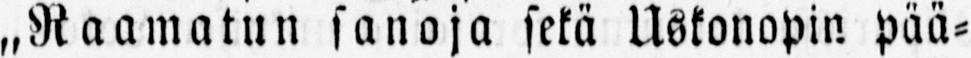„Raamatun sanoja sekä Uskonopin pää-
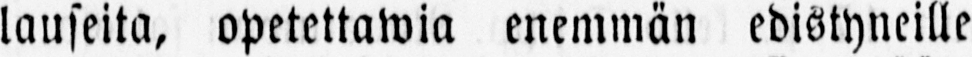lauseita, opetettawia enemmän edistyneille
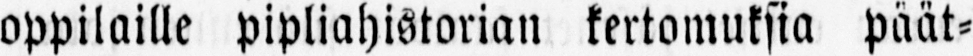oppilaille pipliahistorian kertomuksia päät-
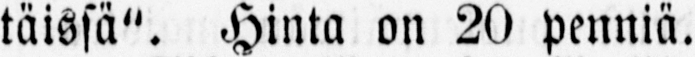täissä". Hinta on 20 penniä.
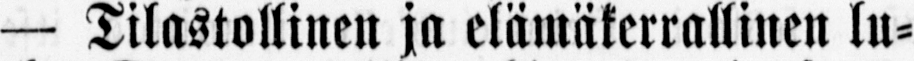— Tilastollinen ja elämäkerrallinen lu-
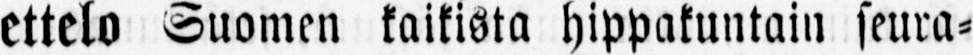ettelo Suomen kaikista hippakuntain seura-
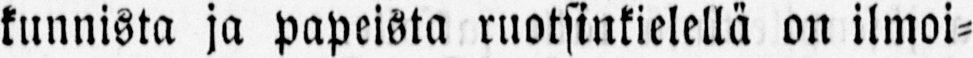kunnista ja papeista ruotsinkielellä on ilmoi-
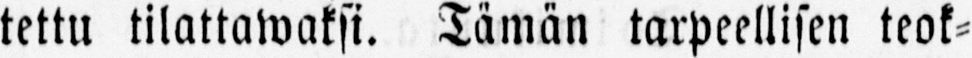tettu tilattawaksi. Tämän tarpeellisen teok-
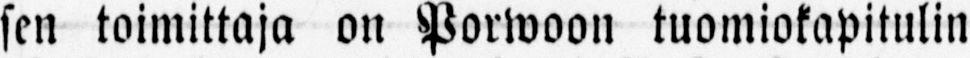sen toimittaja on Porwoon tuomiokapitulin
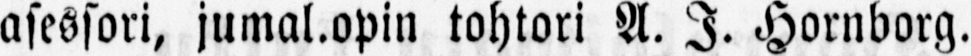asessori, jumal.opin tohtori A. I. Hornborg.
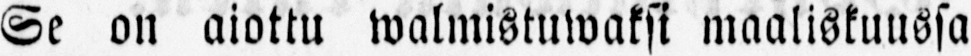Se on aiottu walmistuwaksi maaliskuussa
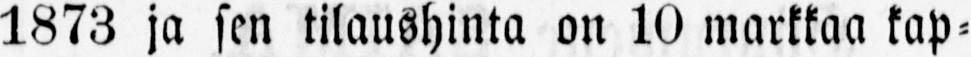1873 ja sen tilaushinta on 10 markkaa kap-
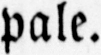pale.
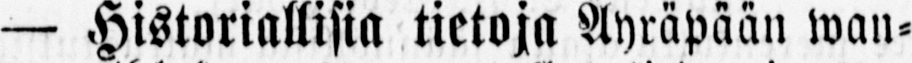— Historiallisia tietoja Äyräpään wan-
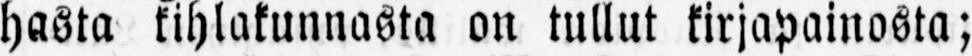hasta kihlakunnasta on tullut kirjapainosta;
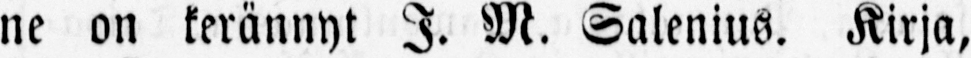ne on kerännyt I. M. Salenius. Kirja,
